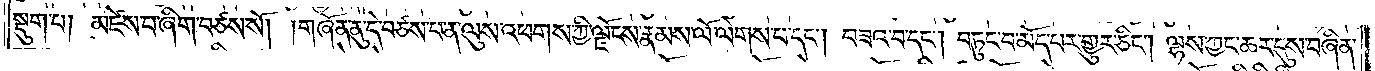སྡུག་པ། མཛེས་པ་ཞིག་བཙས་སོ། །གཞོན་ནུ་དེ་བཙས་པ་ན་ལུས་འཕགས་ཀྱི་ལྗོངས་རྣམས་ལོ་ལེགས་པ་དང༌། བཟའ་བ་དང༌། བཏུང་བ་མོད་པར་གྱུར་ཅིང༌། ལྷས་ཀྱང་ཆར་དུས་བཞིན་
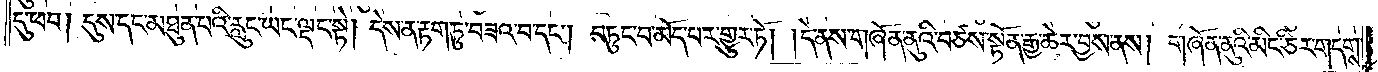དུ་ཕབ། དུས་དང་མཐུན་པའི་རླུང་ཡང་ལྡང་སྟེ། དེས་ན་རྟག་ཏུ་བཟའ་བ་དང༌། བཏུང་བ་མོད་པར་གྱུར་ཏོ། །དེ་ནས་གཞོན་ནུའི་བཙས་སྟོན་རྒྱ་ཆེར་བྱས་ནས། གཞོན་ནུའི་མིང་ཅིར་གདགས་
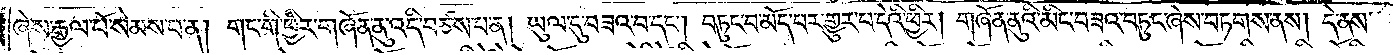ཞེས་རྒྱལ་པོ་སེམས་པ་ན། གང་གི་ཕྱིར་གཞོན་ནུ་འདི་བཙས་པ་ན། ཡུལ་དུ་བཟའ་བ་དང༌། བཏུང་བ་མོད་པར་གྱུར་པ་དེའི་ཕྱིར། གཞོན་ནུའི་མིང་བཟའ་བཏུང་ཞེས་བཏགས་ནས། དེ་ནས་
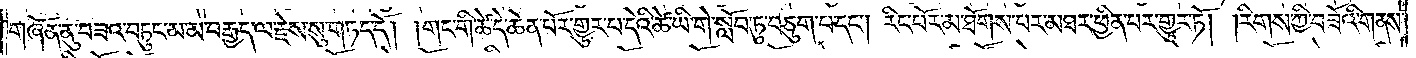གཞོན་ནུ་བཟའ་བཏུང་མ་མ་བརྒྱད་ལ་རྗེས་སུ་གཏད་དོ། །གང་གི་ཚེ་དེ་ཆེན་པོར་གྱུར་པ་དེའི་ཚེ་ཡི་གེ་སློབ་ཏུ་བཅུག་པ་དང༌། རིང་པོར་མ་ཐོགས་པར་མཐར་ཕྱིན་པར་གྱུར་ཏོ། །རིགས་ཀྱི་བཟོའི་གནས་
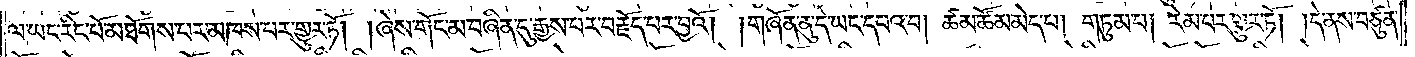ལ་ཡང་རིང་པོ་མ་ཐོགས་པར་མཁས་པར་གྱུར་ཏོ། །ཞེས་གོང་མ་བཞིན་དུ་རྒྱས་པར་བརྗོད་པར་བྱའོ། །གཞོན་ནུ་དེ་ཡང་དཔའ་བ། ཚམ་ཚོམ་མེད་པ། གཏུམ་པ། རེམ་པར་གྱུར་ཏོ། །དེ་ནས་བཙུན་
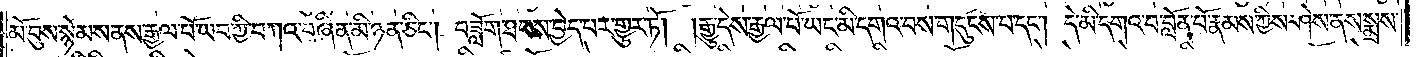མོ་བུས་སྙེམས་ནས་རྒྱལ་པོ་ཡབ་ཀྱི་བཀའ་བཞིན་མི་ཉན་ཅིང༌། བཟློག་ཐབས་བྱེད་པར་གྱུར་ཏོ། །རྒྱུ་དེས་རྒྱལ་པོ་ཡང་མི་དགའ་བས་གདུངས་པ་དང༌། དེ་མི་དགའ་བ་བློན་པོ་རྣམས་ཀྱིས་ཤེས་ནས་སྨྲས་
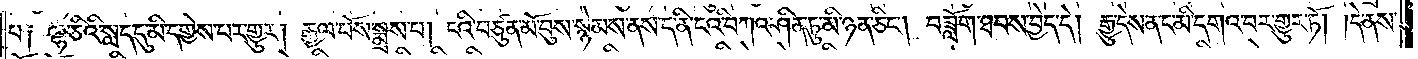པ༑ ལྷ་ཅིའི་སླད་དུ་མི་དགྱེས་པར་གྱུར། རྒྱལ་པོས་སྨྲས་པ། ངའི་བཙུན་མོ་བུས་སྙེམས་ནས་ད་ནི་ངའི་བཀའ་ཤིན་ཏུ་མི་ཉན་ཅིང༌། བཟློག་ཐབས་བྱེད་དེ། རྒྱུ་དེས་ནང་མི་དགའ་བར་གྱུར་ཏོ། །དེ་ནས་
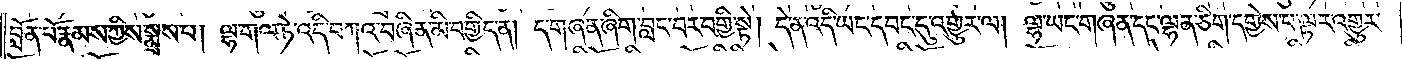བློན་པོ་རྣམས་ཀྱིས་སྨྲས་པ། ལྷ་གལ་ཏེ་འདི་བཀའ་བཞིན་མི་བགྱིད་ན། ད་གཞན་ཞིག་བླང་བར་བགྱི་སྟེ། དེ་ན་འདི་ཡང་དབང་དུ་འགྱུར་ལ། ལྷ་ཡང་གཞན་དང་ལྷན་ཅིག་དགྱེས་པ་ལྟར་འགྱུར་
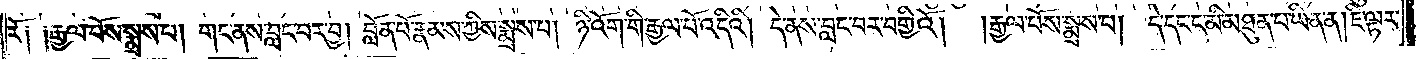རོ༑ ༑རྒྱལ་པོས་སྨྲས་པ། གང་ནས་བླང་བར་བྱ། བློན་པོ་རྣམས་ཀྱིས་སྨྲས་པ། ཉི་འོག་གི་རྒྱལ་པོ་འདིའི། དེ་ནས་བླང་བར་བགྱིའོ། །རྒྱལ་པོས་སྨྲས་པ། དེ་དང་ང་མི་མཐུན་པ་ཡིན་ན། ཇི་ལྟར་
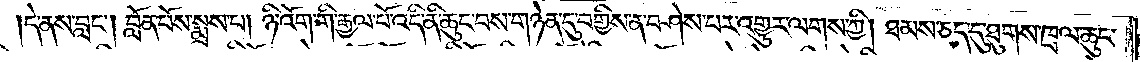དེ་ནས་བླང༌། བློན་པོས་སྨྲས་པ། ཉི་འོག་གི་རྒྱལ་པོ་འདི་ནི་ཆུང་བས་གཉེན་དུ་བགྱིས་ན་བཤེས་པར་འགྱུར་ལགས་ཀྱི། ཐམས་ཅད་དུ་ཐུགས་ཁྲལ་ཆུང་
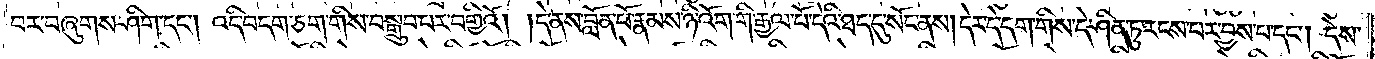བར་བཞུགས་ཤིག་དང༌། འདི་བདག་ཅག་གིས་བསྒྲུབ་པར་བགྱིའོ། །དེ་ནས་བློན་པོ་རྣམས་ཉི་འོག་གི་རྒྱལ་པོ་དེའི་ཐད་དུ་སོང་ནས། དེར་དེ་དག་གིས་དེ་ཤིན་ཏུ་རངས་པར་བྱས་པ་དང༌། དེས་
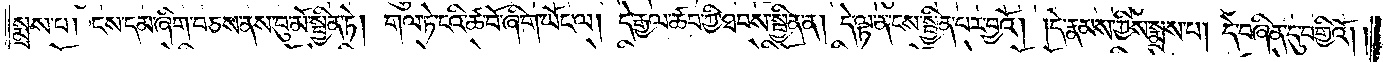སྨྲས་པ། ངས་དམ་ཞིག་བཅས་ནས་བུ་མོ་སྦྱིན་ཏེ། གལ་ཏེ་ངའི་ཚ་བོ་ཞིག་ཡོང་ལ། དེ་རྒྱལ་ཚབ་ཀྱི་ཐབས་སྦྱིན་ན། དེ་ལྟ་ན་ངས་སྦྱིན་པར་བྱའོ། །དེ་རྣམས་ཀྱིས་སྨྲས་པ། དེ་བཞིན་དུ་བགྱིའོ། །
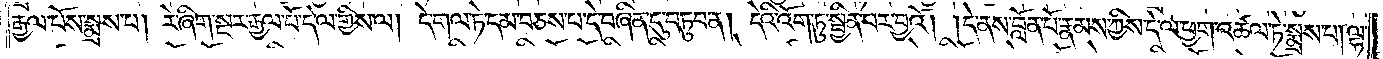རྒྱལ་པོས་སྨྲས་པ། རེ་ཞིག་སྔར་རྒྱལ་པོ་དེ་ལ་གྱིས་ལ། དེ་གལ་ཏེ་དམ་བཅས་པ་དེ་བཞིན་དུ་བཏུབ་ན། དེའི་འོག་ཏུ་སྦྱིན་པར་བྱའོ། །དེ་ནས་བློན་པོ་རྣམས་ཀྱིས་དེ་ལ་ཕྱག་འཚལ་ཏེ་སྨྲས་པ། ལྷ་
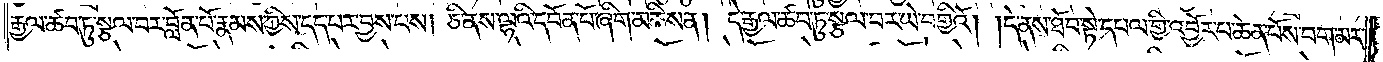རྒྱལ་ཚབ་ཏུ་སྩལ་བར་བློན་པོ་རྣམས་ཀྱིས་དད་པར་བྱས་པས། ཅི་ནས་ལྷའི་དབོན་པོ་ཞིག་མཆིས་ན། དེ་རྒྱལ་ཚབ་ཏུ་སྩལ་བར་ཡེ་བགྱིའོ། །དེ་ནས་ཐོབ་སྟེ་དཔལ་གྱི་འབྱོར་པ་ཆེན་པོས་བག་མར་
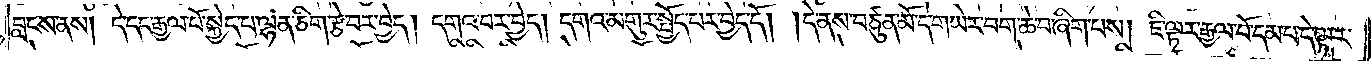བླངས་ནས། དེ་དང་རྒྱལ་པོ་སྐྱེད་པ་ལྷན་ཅིག་རྩེ་བར་བྱེད། དགའ་བར་བྱེད། དགའ་མགུར་སྤྱོད་པར་བྱེད་དོ། །དེ་ནས་བཙུན་མོ་དེ་གཡེར་བག་ཆེ་བ་ཞིག་པས། ཇི་ལྟར་རྒྱལ་པོ་དམ་པ་དེ་ལྟར་
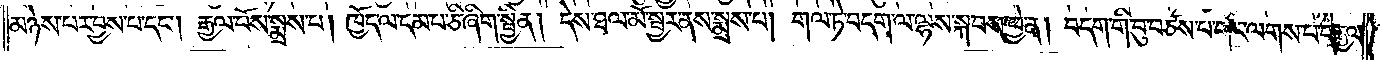མཉེས་པར་བྱས་པ་དང༌། རྒྱལ་པོས་སྨྲས་པ། ཁྱོད་ལ་དམ་པ་ཅི་ཞིག་སྦྱིན། དེས་ཐལ་མོ་སྦྱར་ནས་སྨྲས་པ། གལ་ཏེ་བདག་ལ་ལྷས་སྐབས་ཕྱེ་ན། བདག་གི་བུ་བཙས་པ་གང་ལགས་པ་དེ་རྒྱལ་
